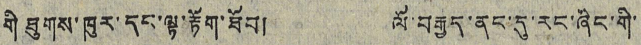གི ཐུགས་ཁུར་དང་ལྟ་རྟོག་ཐོབ། ལོ་བརྒྱད་ནང་དུ་རང་ཞིང་གི་
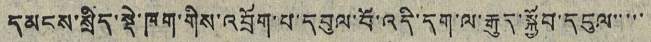དམངས་སྲིད་སྡེ་ཁག་གིས་འབྲོག་པ་དབུལ་བོ་འདི་དག་ལ་རྒུད་སྐྱོབ་དངུལ་་་་་
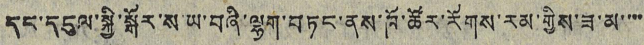དང་དངུལ་སྐྱི་སྒོར་ས་ཡ་བཞི་ལྷག་བཏང་ནས་ཁོ་ཚོར་རོགས་རམ་གྱིས་ཟ་མ་་་་
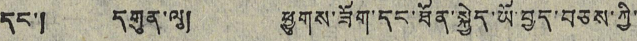དང་། དགུན་ལུ། ཕྱུགས་ཟོག་དང་ཐོན་སྐྱེད་ཡོ་བྱད་བཅས་ཀྱི་
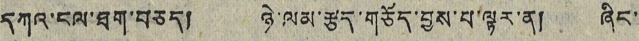དཀའ་ངལ་ཐག་བཅད། ཉེ་ལམ་རྩད་གཅོད་བྱས་པ་ལྟར་ན། ཞིང་
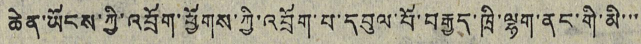ཆེན་ཡོངས་ཀྱི་འབྲོག་ཕྱོགས་ཀྱི་འབྲོག་པ་དབུལ་བོ་བརྒྱད་ཁྲི་ལྷག་ནང་གི་མི་་་་
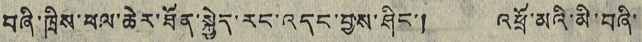བཞི་ཁྲིས་ཕལ་ཆེར་ཐོན་སྐྱེད་རང་འདང་བྱས་ཤིང་། འཕྲོ་མའི་མི་བཞི་
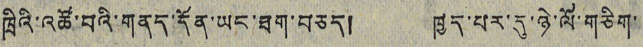ཁྲིའི་འཚོ་བའི་གནད་དོན་ཡང་ཐག་བཅད། ཁྱད་པར་དུ་ཉེ་ལོ་གཅིག་
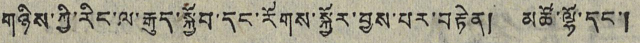གཉིས་ཀྱི་རིང་ལ་རྒུད་སྐྱོབ་དང་རོགས་སྐྱོར་བྱས་པར་བརྟེན། མཚོ་ལྷོ་དང་།
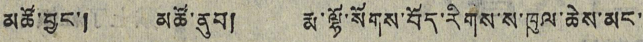མཚོ་བྱང་། མཚོ་ནུབ། རྨ་ལྷོ་སོགས་བོད་རིགས་ས་ཁུལ་ཆེས་མང་
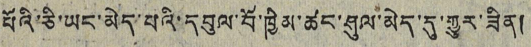པོའི་ཅི་ཡང་མེད་པའི་དབུལ་བོ་ཁྱིམ་ཚང་ཤུལ་མེད་དུ་གྱུར་ཟིན།
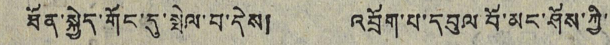ཐོན་སྐྱེད་གོང་དུ་སྤེལ་བ་དེས། འབྲོག་པ་དབུལ བོ་མད་ཤོས་ཀྱི་
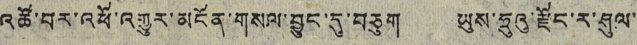འཚོ་བར་འཕོ་འགྱུར་མངོན་གསལ་བྱུང་དུ་བཅུག ཡུས་ཧྲུའུ་རྫོང་ར་ཤུལ་
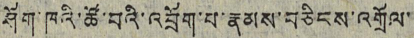ཤོག་ཁའི་ཚོ་བའི་འབྲོག་པ་རྣམས་བཅིངས་འགྲོལ་
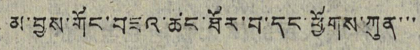མ་བྱས་གོང་བཟའ་ཚང་ཐོར་བ་དང་ཕྱོགས་ཀུན་་་
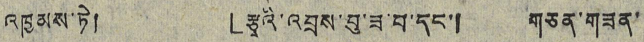འཁྱམས་ཏེ། 「རྩྭའི་འབྲས་བུ་ཟ་བ་དང་། གཅན་གཟན་
